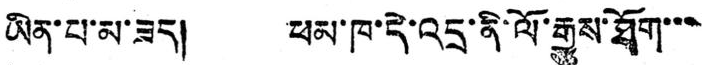ཡིན་པ་མ་ཟད། ཕམ་ཁ་དེ་འདྲ་ནི་ལོ་རྒྱུས་ཐོག་་་
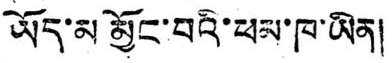ཡོད་མ མྱོང་བའི་ཕམ་ཁ་ཡིན།
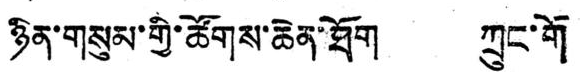ཉིན་གསུམ་གྱི་ཚོགས་ཆེན་ཐོག ཀྲུང་གོ
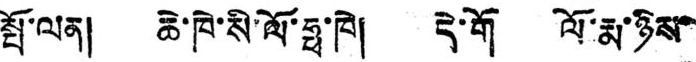སྤོ་ལན། ཆེ་ཁེ་སི་ལོ་ཧྥ་ཁེ། དེ་གོ ལོ་རྨ་ཉིས་
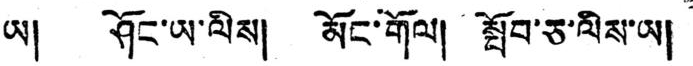ཡ། ཤོང་ཡ་ལིས། མོང་གོལ། སྤོབ་ཅ་ལིས་ཡ།
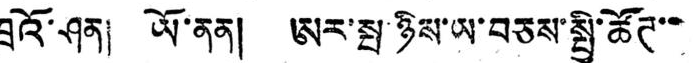ཁྲའོ་ཤན། ཡོ་ནན། ཨར་སྤ་ཉིས་ཡ་བཅས་སྤྱི་ཚོཊ་་
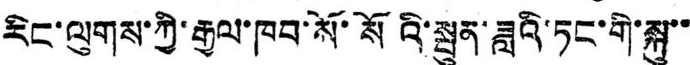རིང་ལུགས་ཀྱི་རྒྱལ་ཁབ་སོ་སོའི་སྦུན་ཟླའི་ཏང་གི་སྐུ་་
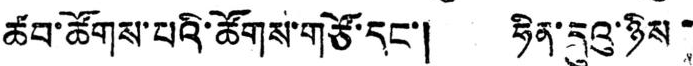ཚབ་ཚོགས་པའི་ཚོགས་གཙོ་དང་། ཧིན་དུའུ་ཉིས་
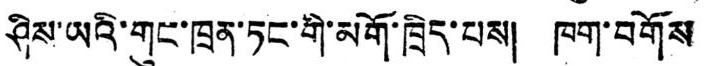ཤིས་ཡའི་གུང་ཁྲན་ཏང་གི་མགོ་ཁྲིད་པས། ཁག་བགོས
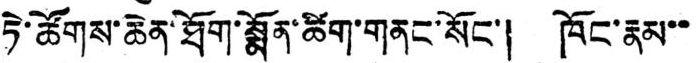ཏེ་ཚོགས་ཆེན་ཐོག་སྨོན་ཚིག་གནང་སོང་། ཁོང་རྣམ་་
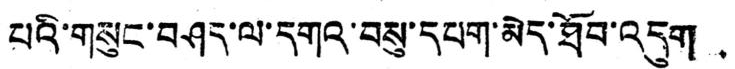པའི་གསུང་བཤད་ལ་དགའ་བསུ་དཔག་མེད་ཐོབ་འདུག
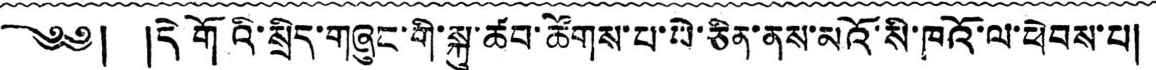༄༅། །དེ གོའི་སྲིད་གཞུང་གི་སྐུ་ཚབ་ཚོགས་པ་པེ་ཅིན་ནས་མའོ་སི་ཁའོ་ལ་ཕེབས་པ།
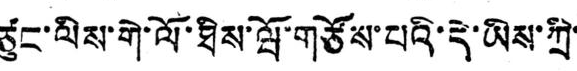ཙུང་ལིས་གེ་ལོ་ཐིས་ཝོ་གཙོས་པའི་དེ་ཡིས་ཀྲི་
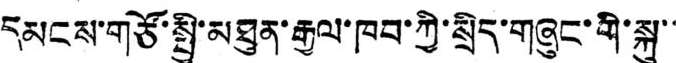དམངས་གཙོ་སྤྱི་མཐུན་རྒྱལ་ཁབ་ཀྱི་སྲིད་གཞུང་གི་སྐུ་་་
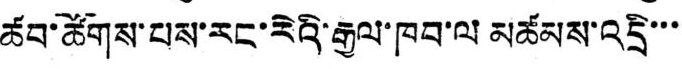ཚབ་ཚོགས་པས་རང་རེའི་རྒྱལ་ཁབ་ལ མཚམས་འདྲི་་་་
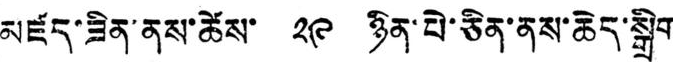མཛད་ཟིན་ནས་ཚེས་ ༢༩ ཉིན་པེ་ཅིན་ནས་ཆེད་སྒྲིག་
